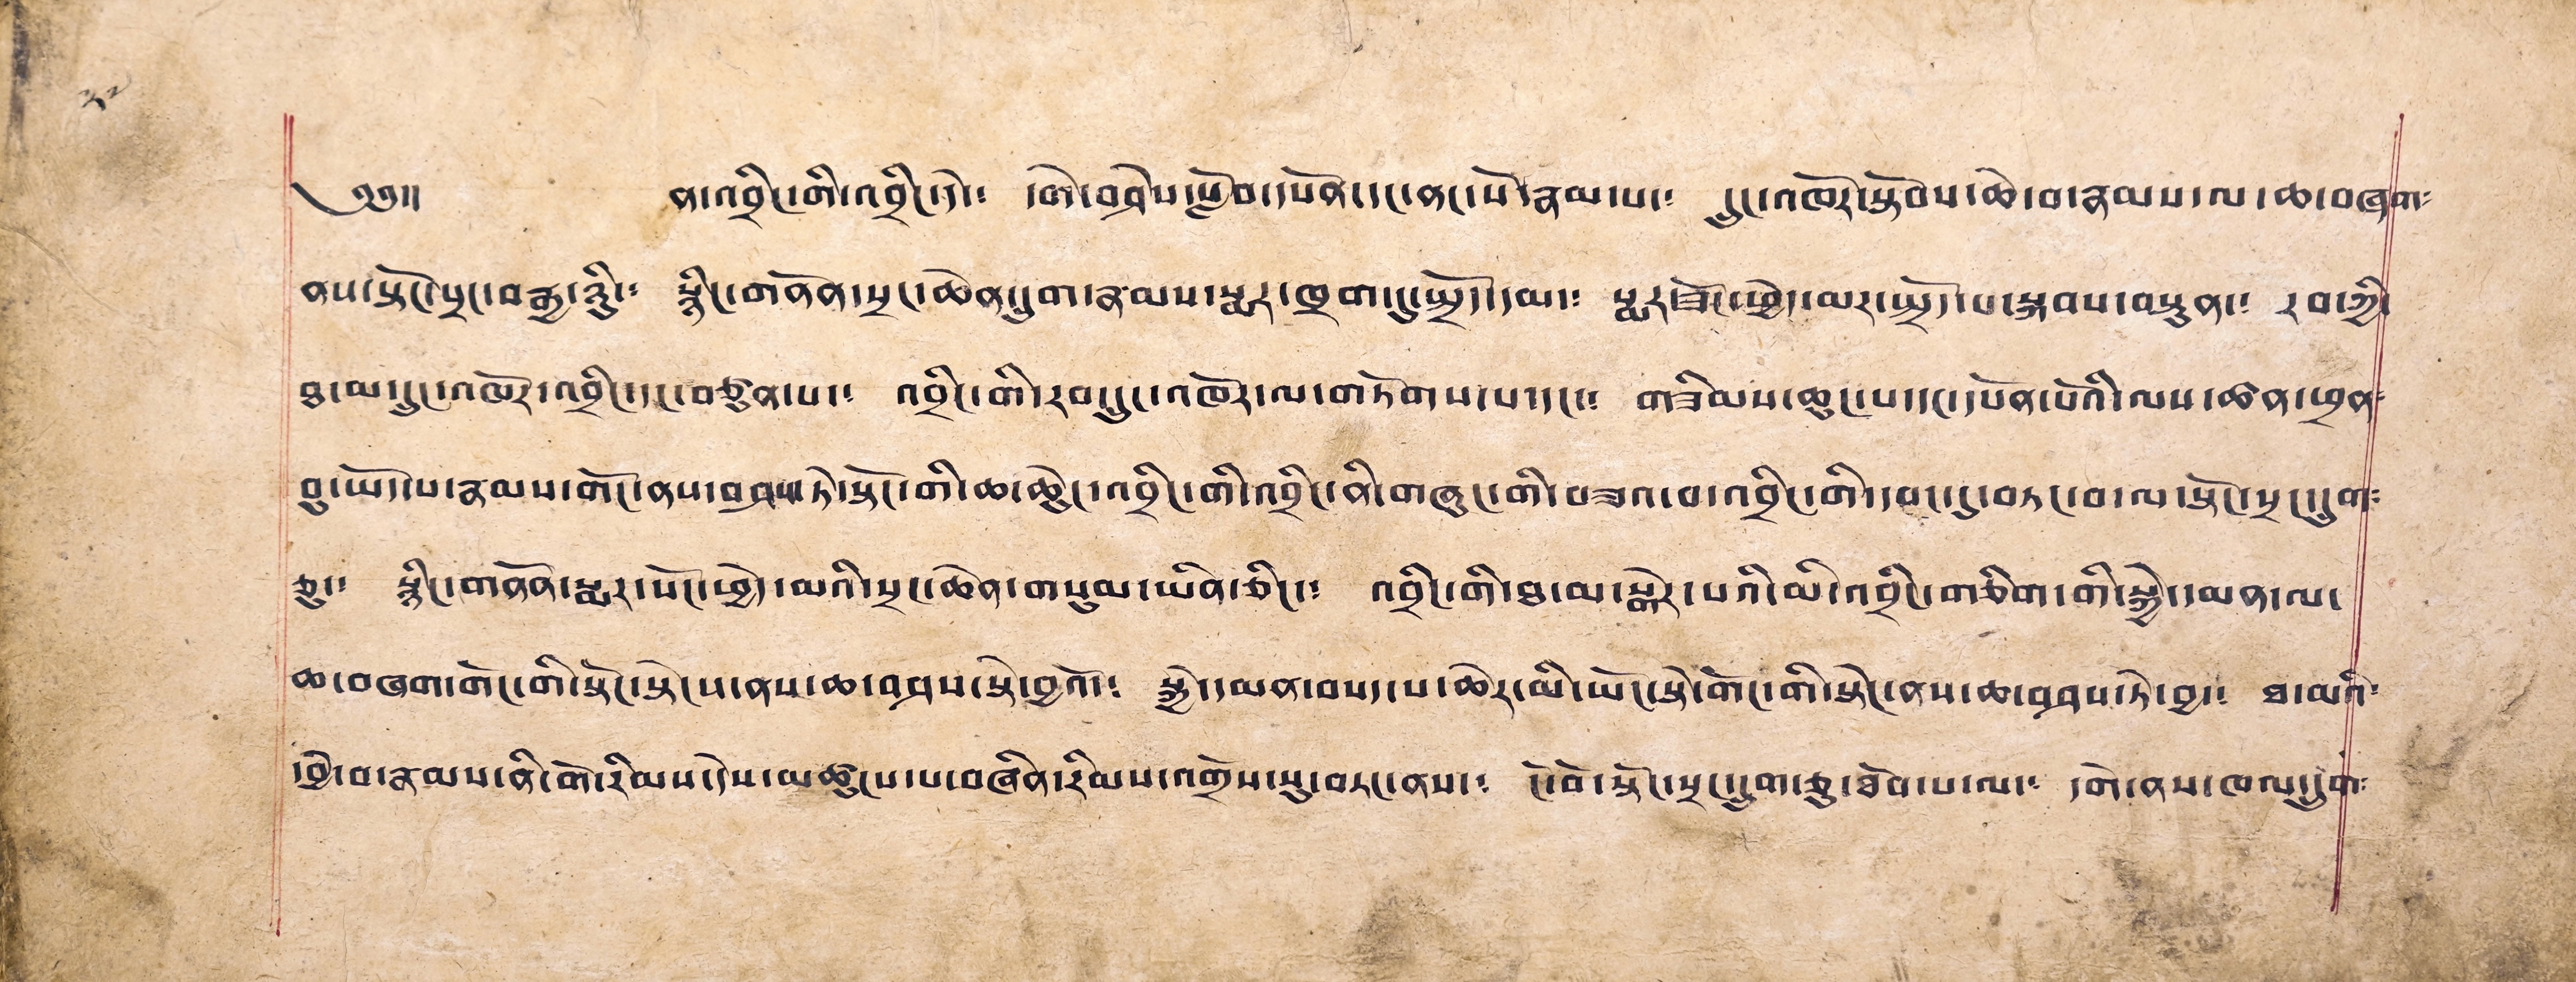༄༅།། ན་འབྲིང་གི་འབྲིང་དེ་༴ དགེ་བཤེས་སློབ་དཔོག་དང་ནང་སོ་རྣམ་པ་༴ དྲང་འཁོར་སྟོབས་ཆེ་བ་རྣམས་ལ་ཆ་བཞག༴
ནས་སྟོང་སྲང་བརྒྱ་ཉིུ་༴ སྙིང་གནོན་སྲང་ཆེན་དྲུག་རྣམས་སྨར་ཁྲག་དུ་སྤྲོད་དམ་༴ སྨར་ཟོང་ཕྱེད་མར་སྤྲོད་པ་སྐབས་བསྟུན་༴ རབ་ཀྱི་
ཐ་མ་དྲུང་འཁོར་འབྲིང་དང་བཙུན་པ་༴ འབྲིང་གི་རབ་དྲུང་འཁོར་ལ་གཏོགས་པ་དང་༴ གཟིམས་ཆུང་པ་དང་དཔོན་པོའི་ལས་ཚན་ཕྲན༴
བུ་ཡོད་པ་རྣམས་གོང་ནས་བཤས་ཏེ་སྟོང་གི་ཆ་ཆེུང་འབྲིང་གི་འབྲིང་ནི་གཞུང་གི་བཟའ་བ་འབྲིང་གི་དབང་དུ་བཏང་བ་ལ་སྟོང་སྲང་དྲུག༴
ཅུ་༴ སྙིང་གནོན་སྨར་སོང་ཕྱེད་མའི་སྲང་ཆེན་གསུམ་ཡིན་ཅིང་༴ འབྲིང་གི་ཐ་མ་སྒེར་པའི་མི་འབྲིང་གཅིག་གི་སྐྱེ་དམན་ལ་
ཆ་བཞག་གོང་གི་སྟོང་སྟེངས་ནས་ཆ་བཤས་སྟེ་བྱའོ་༴ སྐྱེ་དམན་བསད་པ་ཆེར་མི་ཡོང་སྟེ་གོང་གི་སྟེང་ནས་ཆ་བཤས་ཏེ་བྱ་༴ ཐ་མའི་
དབྱེ་བ་རྣམས་ནི་གོ་རིམས་དེས་མཚུངས་པ་བཞིན་རིམས་འགྲོས་སུ་བཏང་ནས་༴ ངོ་བོ་སྟོང་སྲང་དྲུག་ཅུ་ཐོབ་པ་ལ་༴ དགེ་ནས་ཁལ་དྲུག༴
